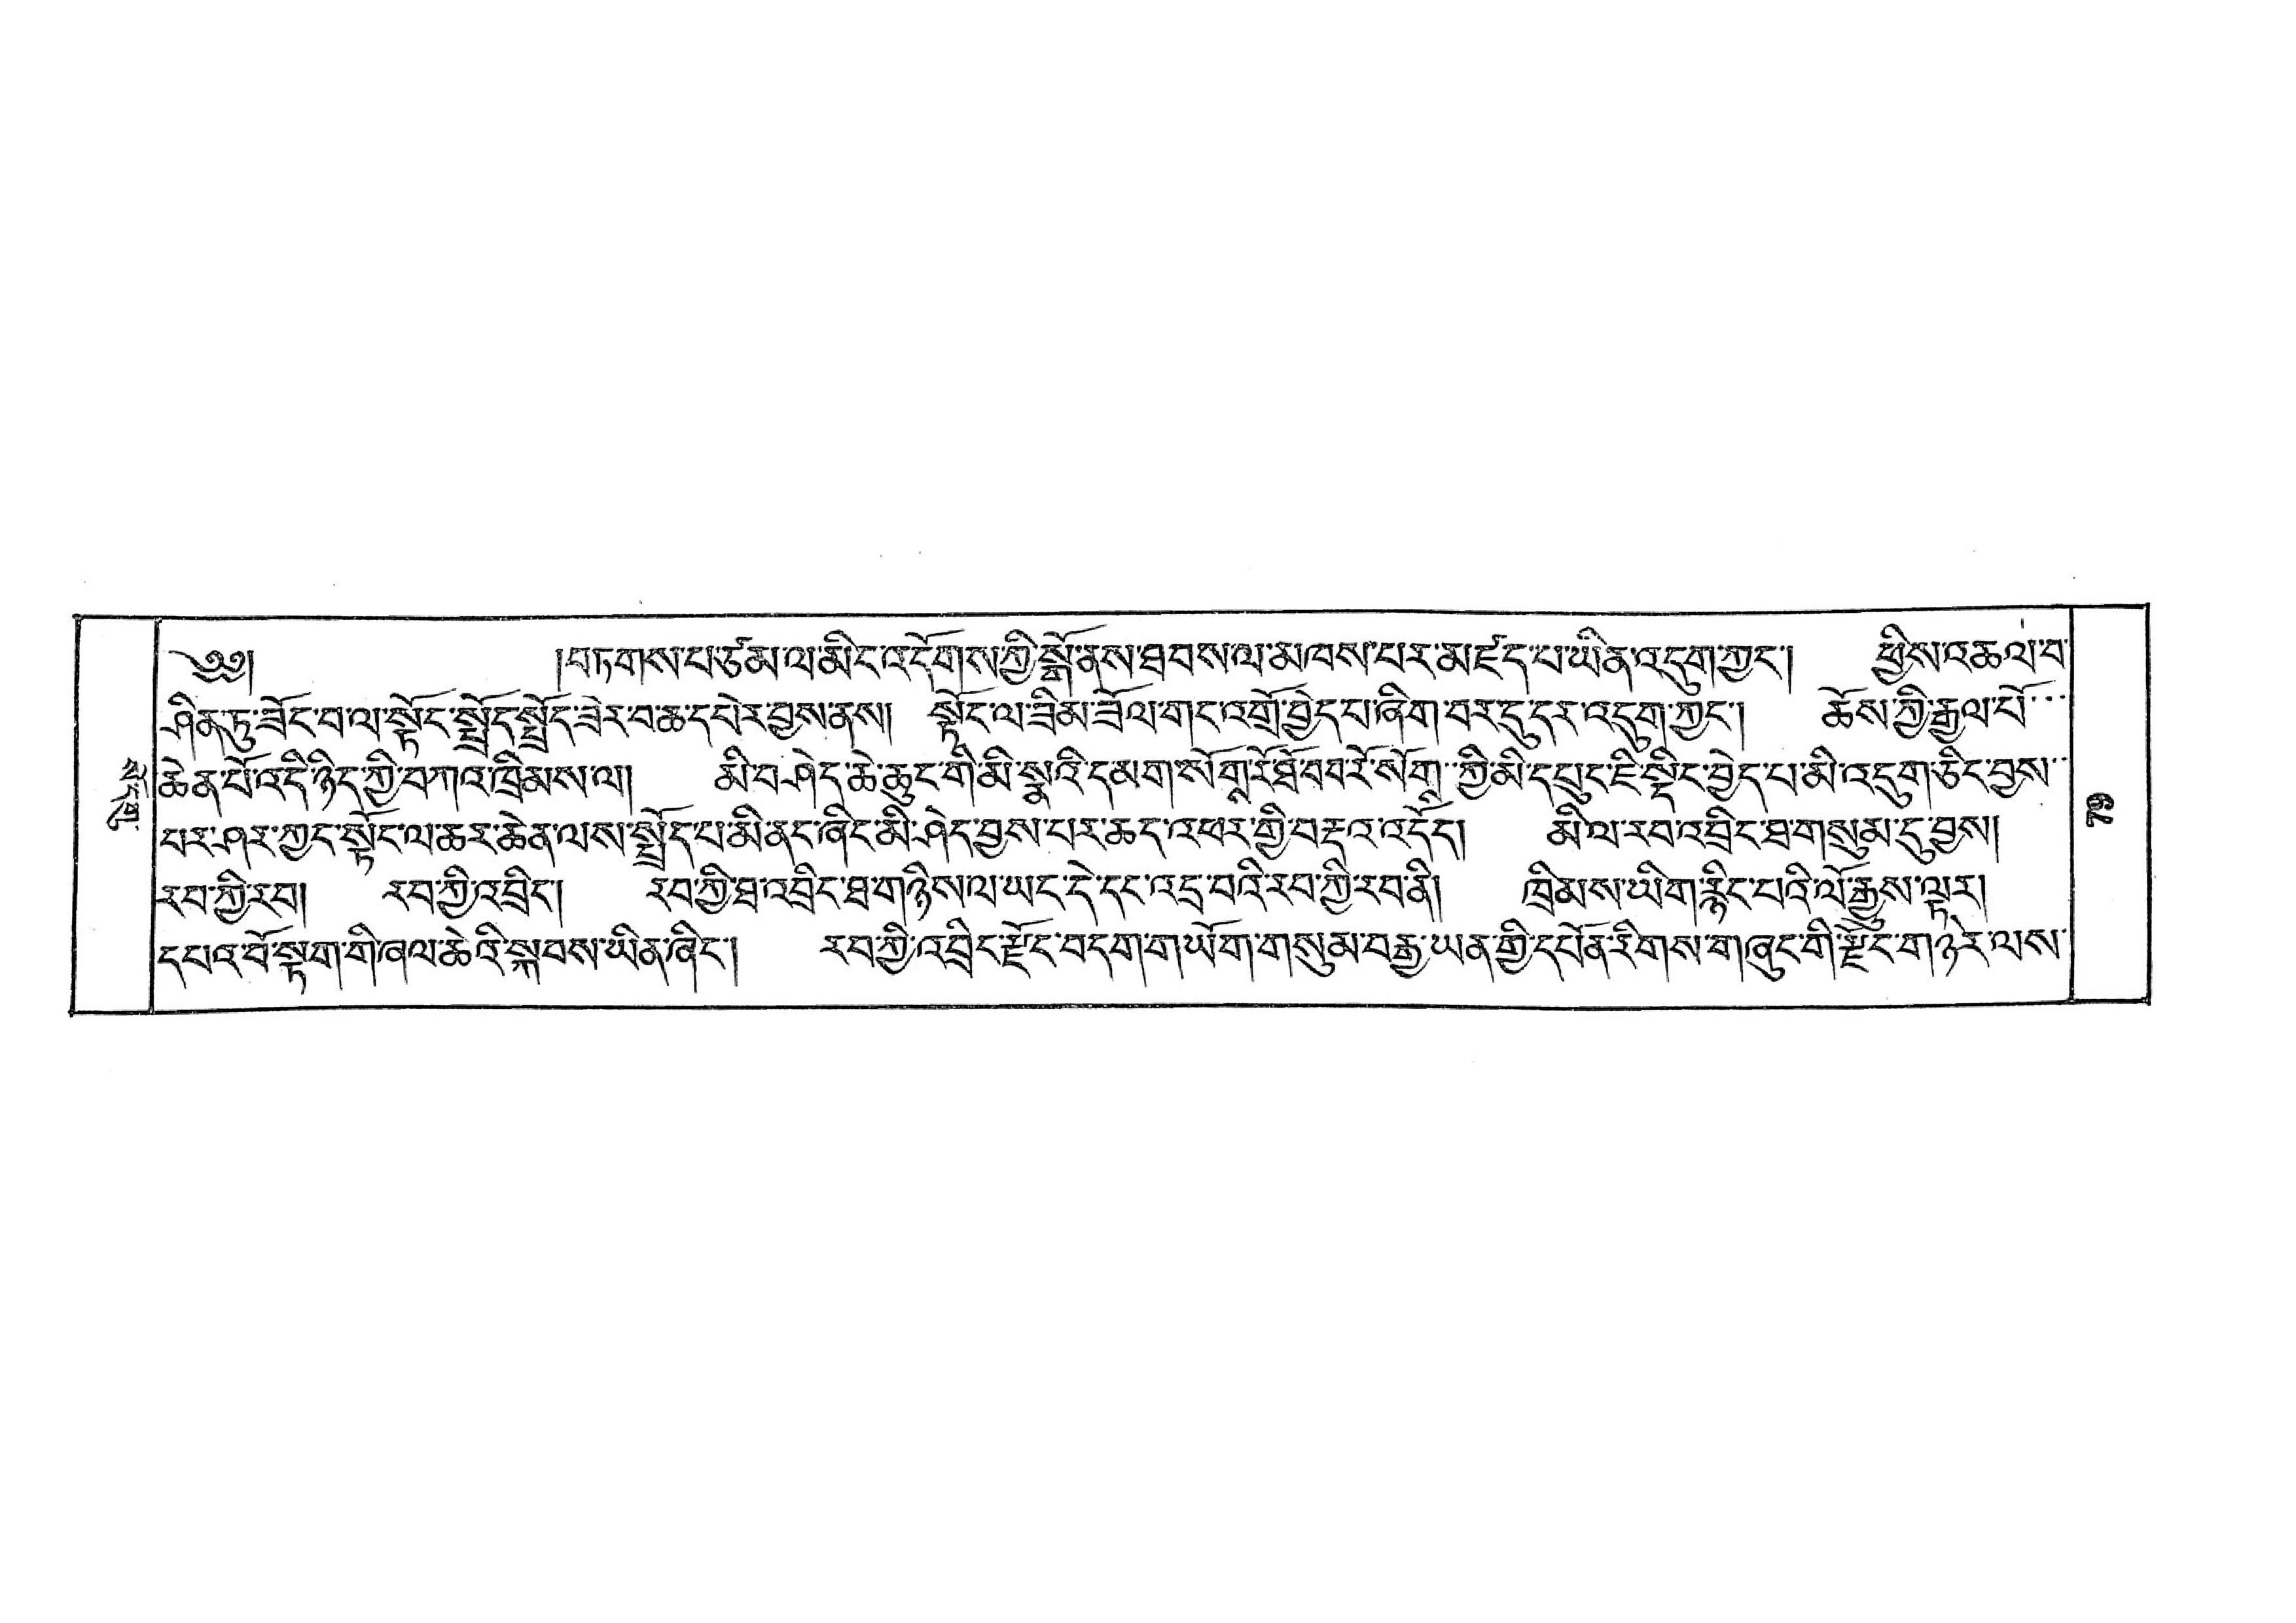སོ་དགུ་
༄༅།  །བཏགས་པ་ཙམ་ལ་མིང་འདོགས་གྱི་སྒོ་ནས་ཐབས་ལ་མཁས་པར་མཛད་པ་ཡིན་འདུག་ཀྱང་། ཕྱིས་འཆལ་བ་
ཤིན་ཏུ་ཟོང་བ་ལ་སྟོང་སྤྲོད་སྤྲོད་ཟེར་བ་ཆེ་དཔེར་བྱས་ནས། སྟོང་ལ་ཟིམ་ཟོལ་གང་འགྲོ་བྱེད་པ་ཞིག་བར་དུ་དར་འདུག་ཀྱང་། ཆོས་ཀྱི་རྒྱལ་པོ་་་
ཆེན་པོ་འདི་ཉིད་ཀྱི་བཀའ་ཁྲིམས་ལ། མི་བཤེད་ཆེ་ཆུང་གི་མི་སྣའི་དམག་སོགས་རོ་ཐོ་བབ་རོ་སོགས་ཀྱི་མི་དཔུང་ཇི་སྡིང་བྱེད་པ་མི་འདུག་ཅིང་བྱས་་
པར་ཤར་ཀྱང་སྟོང་ལ་ཆར་ཆེན་ལས་སྤྲོད་པ་མི་ནང་ཞིང་མི་ཤེད་བྱས་པར་ཆད་འཕར་གྱི་བརྡའ་འདོད། མི་ལ་རབ་འབྲིང་ཐ་གསུམ་དུ་བྱས།
རབ་ཀྱི་རབ། རབ་ཀྱི་འབྲིང་། རབ་ཀྱི་ཐ་འབྲིང་ཐ་གཉིས་ལ་ཡང་དེ་དང་འདྲ་བའི་རབ་ཀྱི་རབ་ནི། ཁྲིམས་ཡིག་རྙིང་པའི་ལོ་རྒྱུས་ལྟར།
དཔའ་བོ་སྟག་གི་ཞལ་ཆེའི་སྐབས་ཡིན་ཞིང་། རབ་ཀྱི་འབྲིང་རྫོང་བདག་གཡོག་གསུམ་བརྒྱ་ཡན་གྱི་དཔོན་རིགས་གཞུང་གི་རྫོང་གཉེར་ལས་
